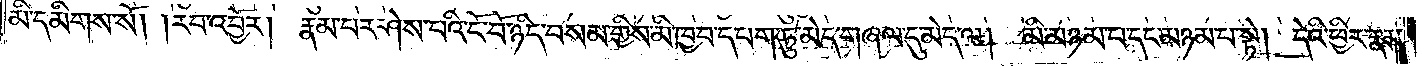མི་དམིགས་སོ། །རབ་འབྱོར། རྣམ་པར་ཤེས་པའི་ངོ་བོ་ཉིད་བསམ་གྱིས་མི་ཁྱབ་དཔག་ཏུ་མེད་གཞལ་དུ་མེད་ལ། མི་མཉམ་པ་དང་མཉམ་པ་སྟེ། དེའི་ཕྱིར་རྣམ་
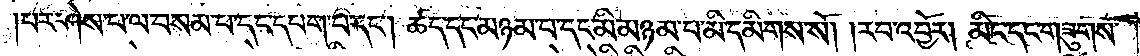པར་ཤེས་པ་ལ་བསམ་པ་དང་དཔག་པ་དང༌། ཚད་དང་མཉམ་པ་དང་མི་མཉམ་པ་མི་དམིགས་སོ། །རབ་འབྱོར། མིང་དང་གཟུགས་
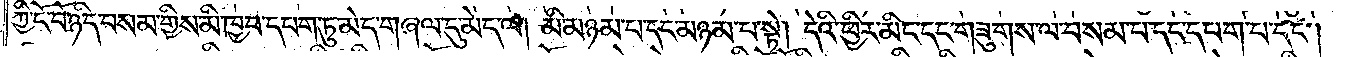ཀྱི་ངོ་བོ་ཉིད་བསམ་གྱིས་མི་ཁྱབ་དཔག་ཏུ་མེད་གཞལ་དུ་མེད་ལ། མི་མཉམ་པ་དང་མཉམ་པ་སྟེ། དེའི་ཕྱིར་མིང་དང་གཟུགས་ལ་བསམ་པ་དང་དཔག་པ་དང༌།
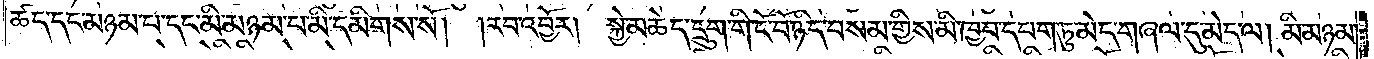ཚད་དང་མཉམ་པ་དང་མི་མཉམ་པ་མི་དམིགས་སོ། །རབ་འབྱོར། སྐྱེ་མཆེད་དྲུག་གི་ངོ་བོ་ཉིད་བསམ་གྱིས་མི་ཁྱབ་དཔག་ཏུ་མེད་གཞལ་དུ་མེད་ལ། མི་མཉམ་
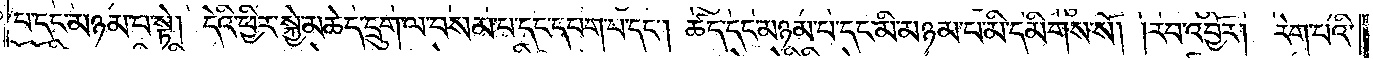པ་དང་མཉམ་པ་སྟེ། དེའི་ཕྱིར་སྐྱེ་མཆེད་དྲུག་ལ་བསམ་པ་དང་དཔག་པ་དང༌། ཚད་དང་མཉམ་པ་དང་མི་མཉམ་པ་མི་དམིགས་སོ། །རབ་འབྱོར། རེག་པའི་
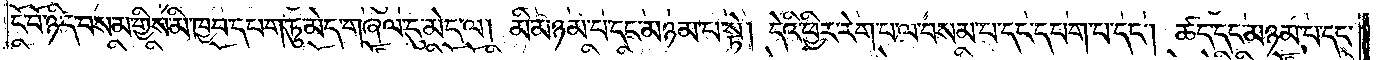ངོ་བོ་ཉིད་བསམ་གྱིས་མི་ཁྱབ་དཔག་ཏུ་མེད་གཞལ་དུ་མེད་ལ། མི་མཉམ་པ་དང་མཉམ་པ་སྟེ། དེའི་ཕྱིར་རེག་པ་ལ་བསམ་པ་དང་དཔག་པ་དང༌། ཚད་དང་མཉམ་པ་དང་
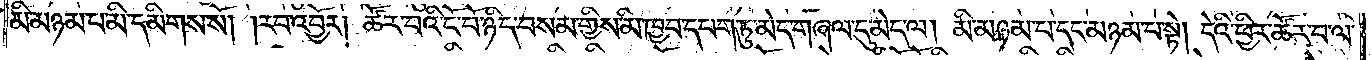མི་མཉམ་པ་མི་དམིགས་སོ། །རབ་འབྱོར། ཚོར་བའི་ངོ་བོ་ཉིད་བསམ་གྱིས་མི་ཁྱབ་དཔག་ཏུ་མེད་གཞལ་དུ་མེད་ལ། མི་མཉམ་པ་དང་མཉམ་པ་སྟེ། དེའི་ཕྱིར་ཚོར་བ་ལ་
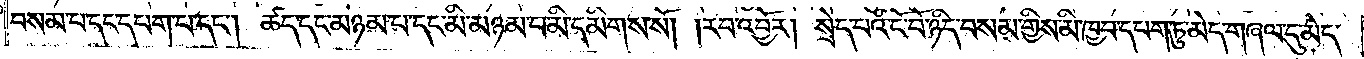བསམ་པ་དང་དཔག་པ་དང༌། ཚད་དང་མཉམ་པ་དང་མི་མཉམ་པ་མི་དམིགས་སོ། །རབ་འབྱོར། སྲེད་པའི་ངོ་བོ་ཉིད་བསམ་གྱིས་མི་ཁྱབ་དཔག་ཏུ་མེད་གཞལ་དུ་མེད་
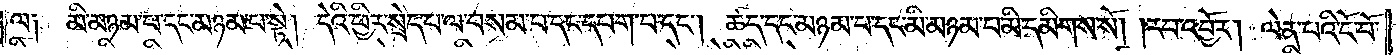ལ། མི་མཉམ་པ་དང་མཉམ་པ་སྟེ། དེའི་ཕྱིར་སྲེད་པ་ལ་བསམ་པ་དང་དཔག་པ་དང༌། ཚད་དང་མཉམ་པ་དང་མི་མཉམ་པ་མི་དམིགས་སོ། །རབ་འབྱོར། ལེན་པའི་ངོ་བོ་
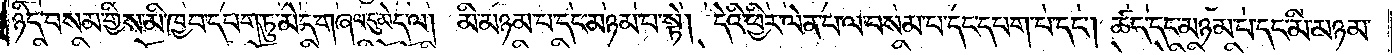ཉིད་བསམ་གྱིས་མི་ཁྱབ་དཔག་ཏུ་མེད་གཞལ་དུ་མེད་ལ། མི་མཉམ་པ་དང་མཉམ་པ་སྟེ། དེའི་ཕྱིར་ལེན་པ་ལ་བསམ་པ་དང་དཔག་པ་དང༌། ཚད་དང་མཉམ་པ་དང་མི་མཉམ་
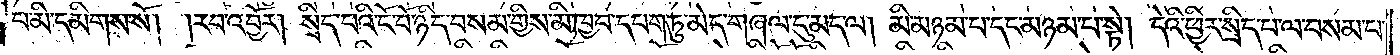པ་མི་དམིགས་སོ། །རབ་འབྱོར། སྲིད་པའི་ངོ་བོ་ཉིད་བསམ་གྱིས་མི་ཁྱབ་དཔག་ཏུ་མེད་གཞལ་དུ་མེད་ལ། མི་མཉམ་པ་དང་མཉམ་པ་སྟེ། དེའི་ཕྱིར་སྲིད་པ་ལ་བསམ་པ་
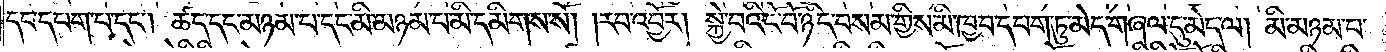དང་དཔག་པ་དང༌། ཚད་དང་མཉམ་པ་དང་མི་མཉམ་པ་མི་དམིགས་སོ། །རབ་འབྱོར། སྐྱེ་བའི་ངོ་བོ་ཉིད་བསམ་གྱིས་མི་ཁྱབ་དཔག་ཏུ་མེད་གཞལ་ཏུ་མེད་ལ། མི་མཉམ་པ་
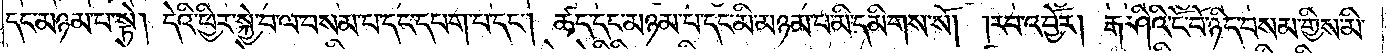དང་མཉམ་པ་སྟེ། དེའི་ཕྱིར་སྐྱེ་པ་ལ་བསམ་པ་དང་དཔག་པ་དང༌། ཚད་དང་མཉམ་པ་དང་མི་མཉམ་པ་མི་དམིགས་སོ། །རབ་འབྱོར། རྒ་ཤིའི་ངོ་བོ་ཉིད་བསམ་གྱིས་མི་
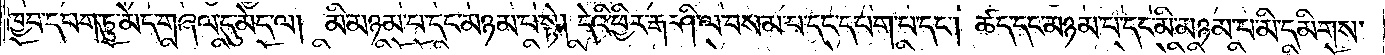ཁྱབ་དཔག་ཏུ་མེད་གཞལ་དུ་མེད་ལ། མི་མཉམ་པ་དང་མཉམ་པ་སྟེ། དེའི་ཕྱིར་རྒ་ཤི་ལ་བསམ་པ་དང་དཔག་པ་དང༌། ཚད་དང་མཉམ་པ་དང་མི་མཉམ་པ་མི་དམིགས་
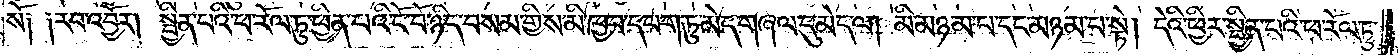སོ། །རབ་འབྱོར། སྦྱིན་པའི་ཕ་རོལ་ཏུ་ཕྱིན་པའི་ངོ་བོ་ཉིད་བསམ་གྱིས་མི་ཁྱབ་དཔག་ཏུ་མེད་གཞལ་དུ་མེད་ལ། མི་མཉམ་པ་དང་མཉམ་པ་སྟེ། དེའི་ཕྱིར་སྦྱིན་པའི་ཕ་རོལ་ཏུ་
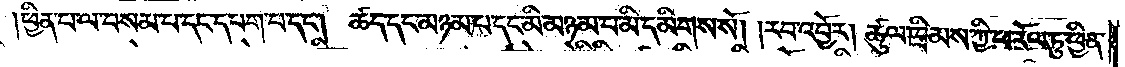ཕྱིན་པ་ལ་བསམ་པ་དང༌དཔག་པ་དང་།  ཚད་དང་མཉམ་པ་དང་མི་མཉམ་པ་མི་དམིགས་སོ། །རབ་འབྱོར། ཚུལ་ཁྲིམས་ཀྱི་ཕ་རོལ་ཏུ་ཕྱིན་
